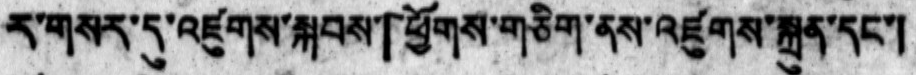ར་གསར་དུ་འཛུགས་སྐབས་「ཕྱོགས་གཅིག་ནས་འཛུགས་སྐྲུན་དང་།
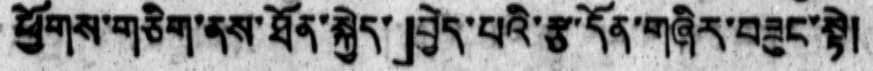ཕྱོགས་གཅིག་ནས་ཐོན་སྐྱེད་」བྱེད་པའི་རྩ་དོན་གཞིར་བཟུང་སྟེ།
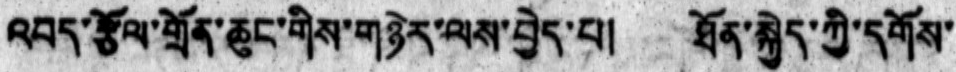འབད་རྩོལ་གྲོན་ཆུང་གིས་གཉེར་ལས་བྱེད་པ།  ཐོན་སྐྱེད་ཀྱི་དགོས་
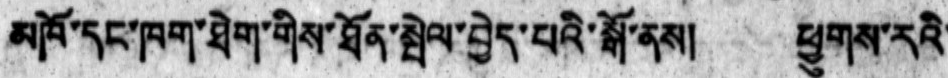མཁོ་དང་ཁག་ཐེག་གིས་ཐོན་སྤེལ་བྱེད་པའི་སྒོ་ནས། ཕྱུགས་རའི་
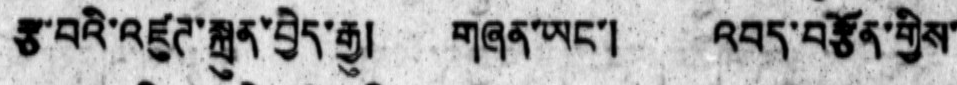རྩ་བའི་འཛུཊ་སྐྲུན་བྱེད་རྒྱུ།  གཞན་ཡང་།  འབད་བརྩོན་གྱིས་
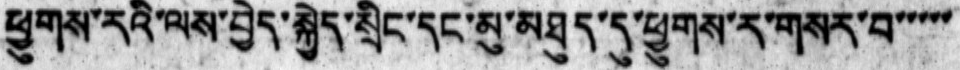ཕྱུགས་རའི་ལས་བྱེད་སྐྱེད་སྲིང་དང་མུ་མཐུད་དུ་ཕྱུགས་ར་གསར་བ་་་་་
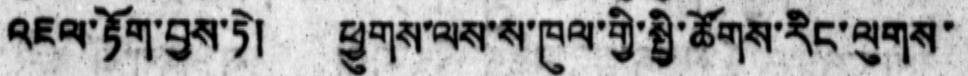འཇལ་རྟོག་བྱས་ཏེ། ཕྱུགས་ལས་ས་ཁུལ་གྱི་སྤྱི་ཚོགས་རིང་ལུགས་
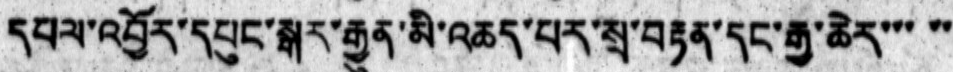དཔལ་འབྱོར་དཔུང་སྒར་རྒྱུན་མི་འཆད་པར་སྲ་བརྟན་དང་རྒྱ་ཆེར་་་་་
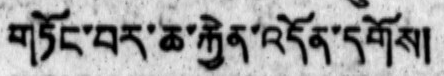གཏོང་བར་ཆ་རྐྱེན་འདོན་དགོས།
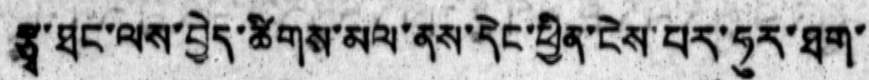རྩྭ་ཐང་ལས་བྱེད་ཚིགས་མལ་ནས་དེང་ཕྱིན་ངེས་པར་ཧུར་ཐག་
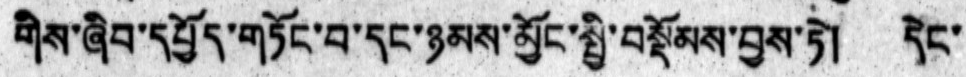གིས་ཞིབ་དཔྱོད་གཏོང་བ་དང་ཉམས་མྱོང་སྤྱི་བསྡོམས་བྱས་ཏེ། དེང་
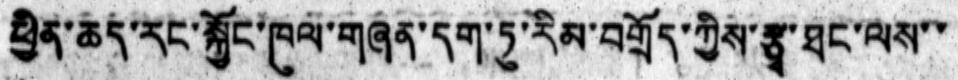ཕྱིན་ཆད་རང་སྐྱོང་ཁུལ་གཞན་དག་ཏུ་རིམ་བགྲོད་ཀྱིས་རྩྭ་ཐང་ལས་་
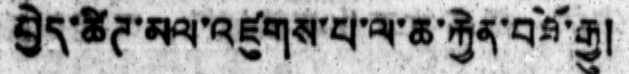བྱེད་ཚིཊ་མལ་འཛུགས་པ་ལ་ཆ་རྐྱེན་བཟོ་རྒྱུ།
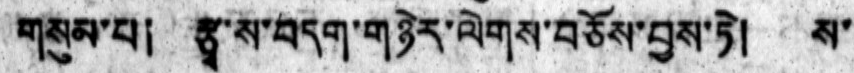གསུམ་པ། རྩྭ་ས་བདག་གཉེར་ལེགས་བཅོས་བྱས་ཏེ། ས་
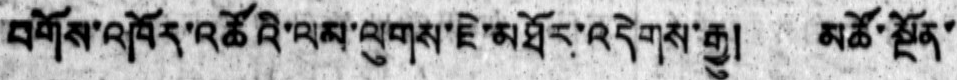བགོས་འཁོར་འཚོའི་ལམ་ལུགས་ཇེ་མཐོར་འདེགས་རྒྱུ།  མཚོ་སྔོན་
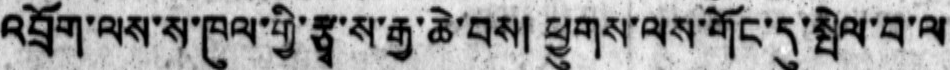འབྲོག་ལས་ས་ཁུལ་གྱི་རྩྭ་ས་རྒྱ་ཆེ་བས། ཕྱུགས་ལས་གོང་དུ་སྤེལ་བ་ལ
